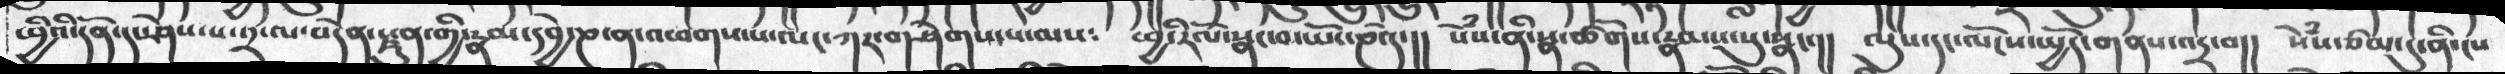ཕྱིའི་དོན་དང་ཤེས་པ་༢་ལ་བདེན་རྫུན་གྱི་རྣམ་དབྱེ་ཎ་ན་འཕགས་པ་ལང་ཀར་གཤེགས་པ་ལས༴  ཕྱི་རོལ་སྣང་བ་ཡོང་ཎའོ་།།  སེཾས་ནི་སྣ་ཚོགས་རྣམས་སུ་སྣང་།།  ལུས་དང་ལོངས་སྤྱོད་གནས་འདྲ་བ།།  སེཾས་ཙམ་དུ་ནི་ངས
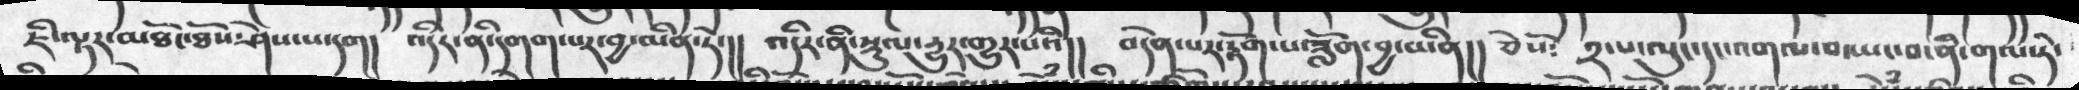ཇི་ལྟར་མཐོང་ཐོས་ཤེས་པ་དག། འདིར་ནི་དགག་པར་བྱ་མིན་ཏེ་།། འདིར་ནི་སྡུལ་དྱུར་གྱུར་པའི།། བདེན་པར་རྟོག་པ་ཟློག་བྱ་མིན།། ཅེསོ༴ ༢་པ་ལུང་དང་འགལ་བ་ཡང་བ་ནི་གལ་ཏེ་
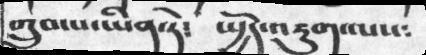གྲུབ་པ་ཡིན་ཏེ༴  སྤྱོད་འཇུག་ལས༴
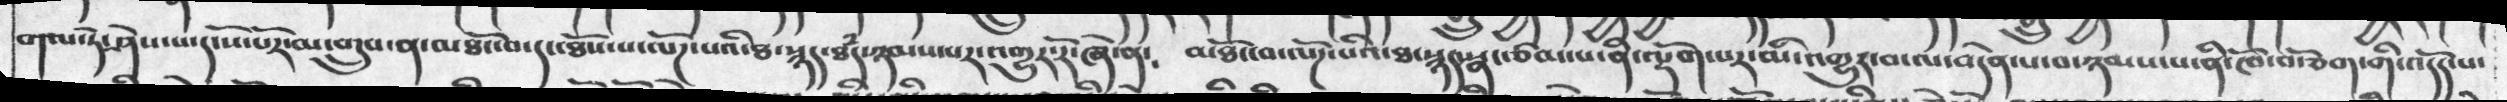གལ་ཏེ་ཤེས་པ་དངསོ་པོར་མ་གྲུབ་ན་མཐོང་བ་དང་ཐོས་པ་ལོཌ་པའི་ཐ་སྙད་ཐཾད་ཉམས་པར་འགྱུར་རོ་ཞེ་ན༴  མཐོང་བ་ལོཌ་པའི་ཐ་སྙད་སྣང་ཙམ་པ་ནི་ལྡོག་པར་མི་འགྱུར་བ་ལ་བདེན་པ་བ་ཉམས་པ་ནི་ཁོ་བོ་ཅག་གི་འདོད་པ་
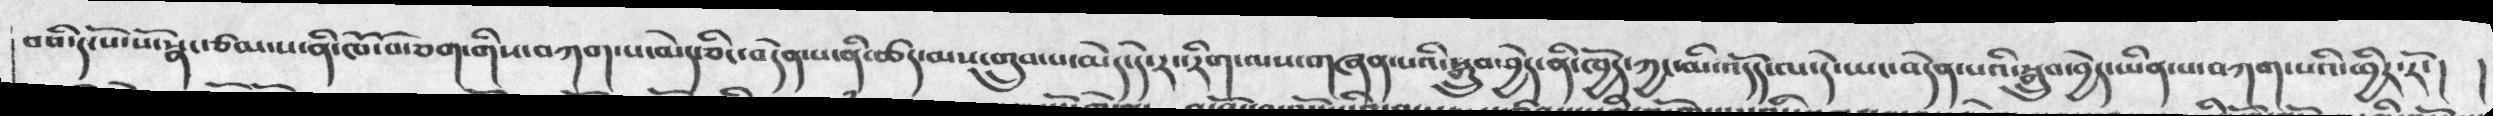བའི་དངོས་པོ་སྣང་ཙམ་པ་ནི་ཁོ་བོ་ཅག་གིས་བཀག་པ་མེད་ཅིང་བདེན་པ་ནི་ཚད་མས་གྲུབ་པ་མེད་དེ་རང་རིག་ལས་གཞན་པའི་སྒྲུབ་བྱེད་ནི་ཁྱོད་ཀྱང་མི་འདོད་ལ་དེ་ཡང་བདེན་པའི་སྒྲུབ་བྱེད་ཡིན་པ་བཀག་པའི་ཕྱིར་རོ་། །
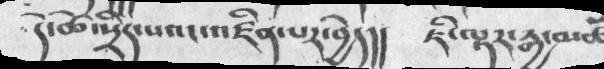དེ་ཚེ་སྲིད་པའང་འཛིན་པར་བྱེད།། ཇི་ལྟར་རྒྱ་མཚོ
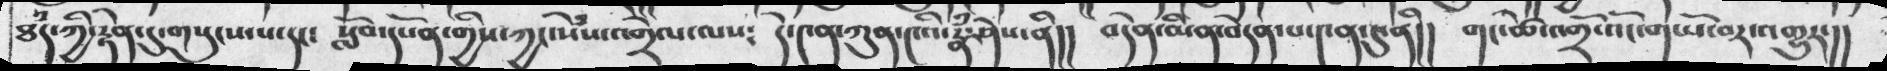ཐཾད་ཀྱི་རྟེན་དུ་གསུངས་པ་དང༴ སློབ་དཔོན་གྱིས་ཀྱང་སེཾས་འགྲེལ་ལས༴ དེ་༤ན་ཀུན་༤འི་རྣཾ་ཤེས་ནི།། བདེན་མིན་བདེན་པ་༤ན་དུ་ནི།། གང་ཚེ་འགྲོ་འོང་གཡོ་བར་འགྱུར་།།
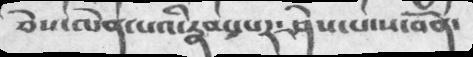ཅེས་ལེན་པའི་རྣམ་པར་ཤེས་པ་ས་བོན་
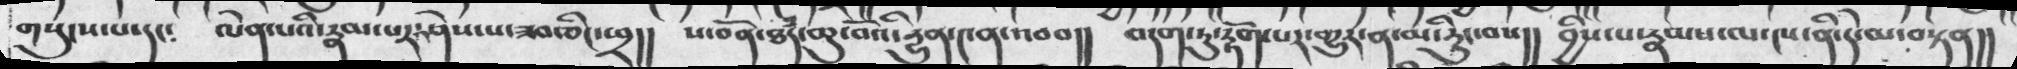གསུངས་པ་དང༴ ལེན་པའི་རྣམ་པར་ཤེས་པ་ཟབ་ཅིང་ཕྲ།། ས་བོན་ཐཾད་ཆུ་བོའི་དྱུན་༤ན་འབབ།། བདག་ཏུ་རྟོག་པར་གྱུར་ན་མི་རུང་བས།། བྱིས་པ་རྣམས་ལ་ལ་ནི་དེ་མ་བསྟན།།
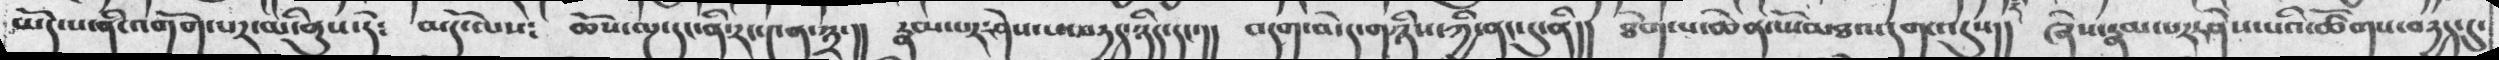མེད་པ་ནི་འགོག་པར་མི་ནུས་དེ༴   མདོ་ལས༴  ཆོས་ལྔ་དང་ནི་རང་༤ན་༣་།།   རྣམ་པར་ཤེས་པ་བརྱད་ཉིད་དང་།།  བདག་མེད་གཉིས་ཀྱི་ནང་དུ་ནི།   ཐེག་པ་ཆེན་པོ་མཐའ་དག་འདུས།།  ཞེས་རྣམ་པར་ཤེས་པའི་ཚོགས་བརྱད་དུ་
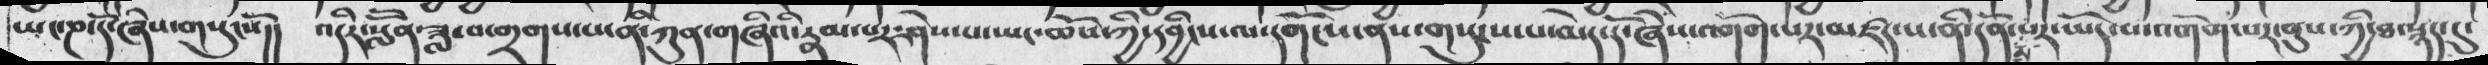ཡང་ཎ་དོ་ཞེས་གསུངསོ།།   འདིར་སློོན་ཟླ་བ་གྲགས་པ་ནི་ཀུན་གཞིའི་རྣམ་པར་ཤེས་པ་ཡང་ཆོས་ཀྱི་དབྱིངས་ལ་དགོངས་ནས་གསུངས་པ་མེད་དོ་ཞེས་འགོག་པར་མཛད་པ་ནི་དོན་མ་པར་ཡོད་པ་འགོག་པར་ནུས་ཀྱི་ཐ་སྙད་དུ་
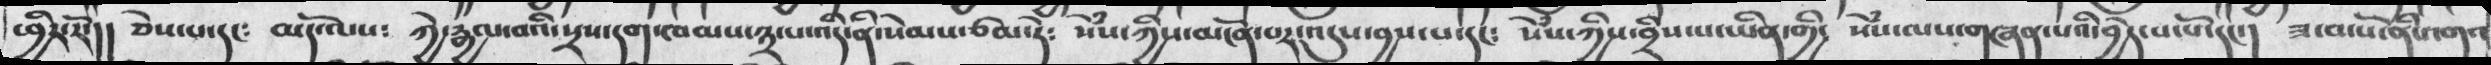ཕྱིར་རོ་།། ཅེས་པ་དང༴ མདོ་ལས༴ ཀྱེ་རྒྱལ་བའི་སྲས་དག་ཁམས་༣་པ་འདི་ནི་སེམས་ཙམ་ཏེ༴ སེཾས་ཀྱིས་མངོན་པར་འདུས་བྱས་པ་དང༴ སེཾས་ཀྱིས་བྲིས་པ་ཡིན་གྱི༴ སེཾས་ལས་གཞན་པའི་བྱེད་པ་པོ་དང་། ཟ་བ་སོ་ནི་འགའ
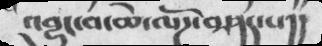འབྱུང་བ་ཆེ་ལོཌ་བཤད་པ།།
